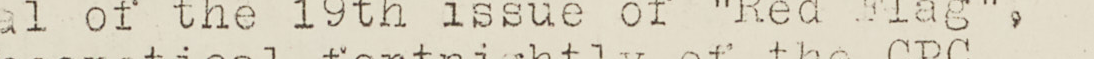kong following the Communist seizure
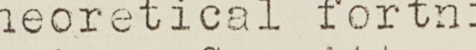of the mainland.
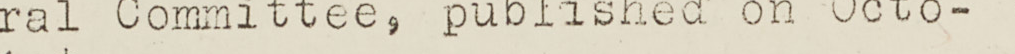Among them was Chou Chin-wen, for
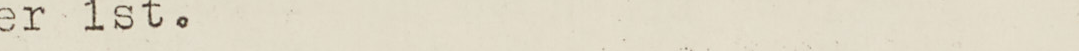mer secretary-general of the leftist
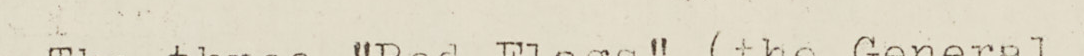"Chinese Democratic League, and mem-
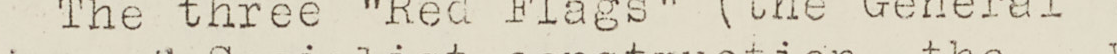ber of the "National Committee of the
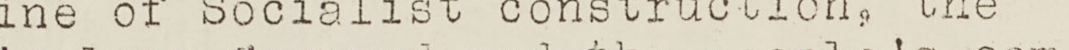People's Congress", who defected in
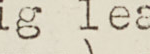1956.
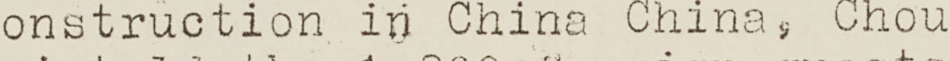The Peiping regime was indicted
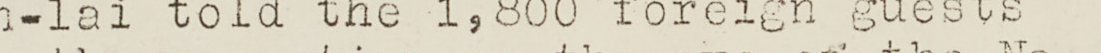for:-- (1) practising one-party dicta
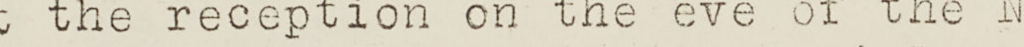torship in the guise of "coalition
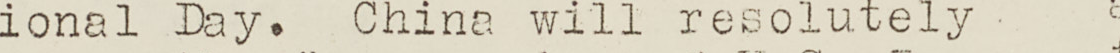government"; (2) yielding outer Mongol
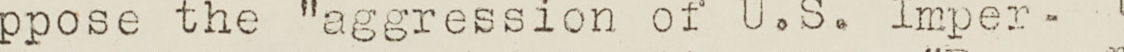ia, an integral part of Chinese terri
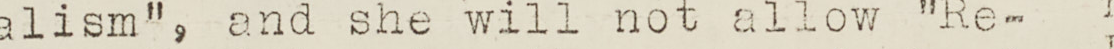tory, to Soviet control; (3) persecut
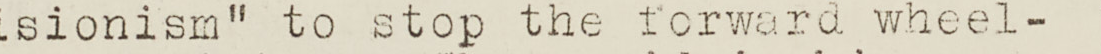ing the people in purges and liquida-
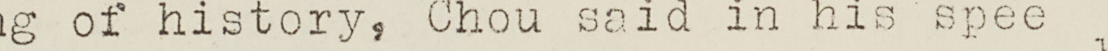tions; (4) enforcing the system of the
